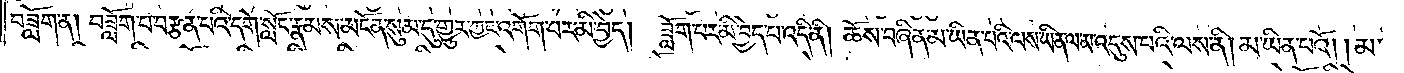བཟློག་ན། བཟློག་པ་བརྩན་པའི་དགེ་སློང་རྣམས་མངོན་སུམ་དུ་གྱུར་ཀྱང་འགོག་པར་མི་བྱེད། ཟློག་པར་མི་བྱེད་པ་འདི་ནི། ཆོས་བཞིན་མ་ཡིན་པའི་ལས་ཡིན་ལ་མ་འདུས་པའི་ལས་ནི། མ་ཡིན་པའོ། །མ་
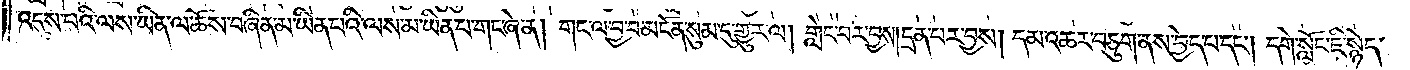འདུས་པའི་ལས་ཡིན་ལ་ཆོས་བཞིན་མ་ཡིན་པའི་ལས་མ་ཡིན་པ་གང་ཞེ་ན། གང་ལ་བྱ་བ་མངོན་སུམ་དུ་གྱུར་ལ། གླེང་བར་བྱས། དྲན་པར་བྱས། དམ་འཆར་བཅུག་ནས་བྱེད་པ་དང༌། དགེ་སློང་ཇི་སྙེད་
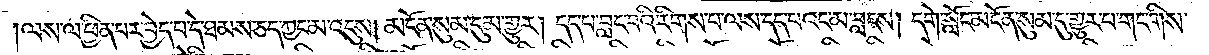ལས་ལ་ཕྱིན་པར་བྱེད་པ་དེ་ཐམས་ཅད་ཀྱང་མ་འདུས། མངོན་སུམ་དུ་མ་གྱུར། དད་པ་བླང་བའི་རིགས་པ་ལས་དད་པའང་མ་བླངས། དགེ་སློང་མངོན་སུམ་དུ་གྱུར་པ་གང་གིས་
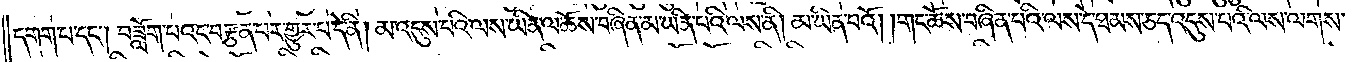དགག་པ་དང༌། བཟློག་པའང་བརྩན་པར་གྱུར་པ་དེ་ནི། མ་འདུས་པའི་ལས་ཡིན་ལ་ཆོས་བཞིན་མ་ཡིན་པའི་ལས་ནི། མ་ཡིན་པའོ། །གང་ཆོས་བཞིན་པའི་ལས་དེ་ཐམས་ཅད་འདུས་པའི་ལས་ལགས་
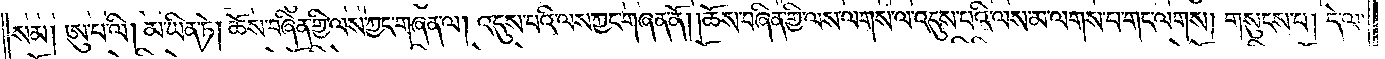སམ། ཨུ་པ་ལི། མ་ཡིན་ཏེ། ཆོས་བཞིན་གྱི་ལས་ཀྱང་གཞན་ལ། འདུས་པའི་ལས་ཀྱང་གཞན་ནོ། །ཆོས་བཞིན་གྱི་ལས་ལགས་ལ་འདུས་པའི་ལས་མ་ལགས་པ་གང་ལགས། གསུངས་པ། དེ་ལ་
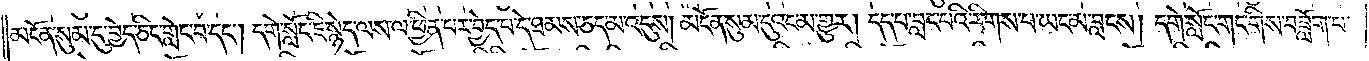མངོན་སུམ་དུ་བྱེད་ཅིང་གླེང་བ་དང༌། དགེ་སློང་ཇི་སྙེད་ལས་ལ་ཕྱིན་པར་བྱེད་པ་དེ་ཐམས་ཅད་མ་འདུས། མངོན་སུམ་དུའང་མ་གྱུར། དད་པ་བླང་པའི་རིགས་པ་ཡང་མ་བླངས། དགེ་སློང་གང་གིས་བཟློག་པ་
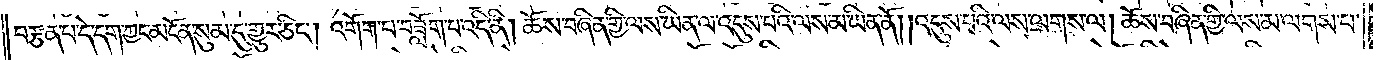བརྩན་པ་དེ་དག་ཀྱང་མངོན་སུམ་དུ་གྱུར་ཅིག། འགོག་པ་བཟློག་པ་འདི་ནི། ཆོས་བཞིན་གྱི་ལས་ཡིན་ལ་འདུས་པའི་ལས་མ་ཡིན་ནོ། །འདུས་པའི་ལས་ལགས་ལ། ཆོས་བཞིན་གྱི་ལས་མ་ལགས་པ་
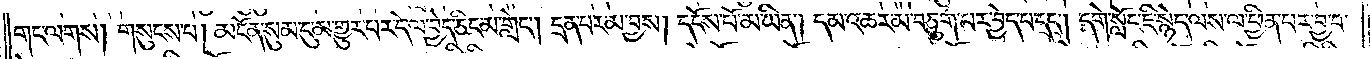གང་ལགས། གསུངས་པ། མངོན་སུམ་དུ་མ་གྱུར་པར་དེ་ལ་བྱེད་ཅིང་མ་གླེང༌། དྲན་པར་མ་བྱས། དངོས་པོ་མ་ཡིན། དམ་འཆར་མ་བཅུག་པར་བྱེད་པ་དང༌། དགེ་སློང་ཇི་སྙེད་ལས་ལ་ཕྱིན་པར་བྱ་བ་
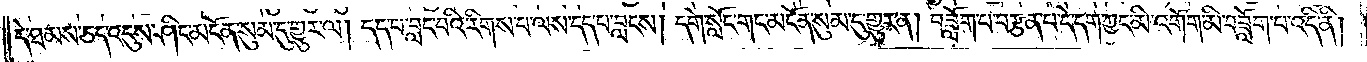དེ་ཐམས་ཅད་འདུས་ཤིང་མངོན་སུམ་དུ་གྱུར་ལ། དད་པ་བླང་པའི་རིགས་པ་ལས་དད་པ་བླངས། དགེ་སློང་གང་མངོན་སུམ་དུ་གྱུར་ན། བཟློག་པ་བརྩན་པ་དེ་དག་ཀྱང་མི་འགོག་མི་བཟློག་པ་འདི་ནི།
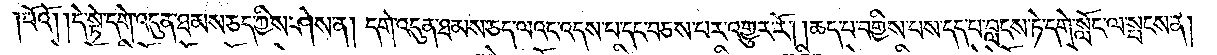པོའོ། །དེ་སྟེ་དགེ་འདུན་ཐམས་ཅད་ཀྱིས་ཤེས་ན། དགེ་འདུན་ཐམས་ཅད་ལའང་འདས་པ་དང་བཅས་པར་འགྱུར་རོ། །ཆད་པ་བགྱིས་པས་དད་པ་བླངས་ཏེ་དགེ་སློང་ལ་སྤངས་ན།
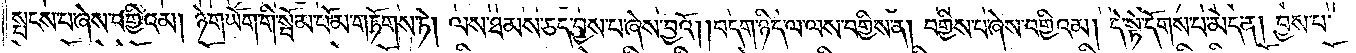སྤངས་པ་ཞེས་བགྱིའམ། ཉེ་གཡོག་གི་སྦོམ་པོ་མ་གཏོགས་ཏེ། ལས་ཐམས་ཅད་བྱས་པ་ཞེས་བྱའོ། །བདག་ཉིད་ལ་ལས་བགྱིས་ན། བགྱིས་པ་ཞེས་བགྱིའམ། དེ་སྟེ་དོགས་པ་མེད་ན། བྱས་པ་
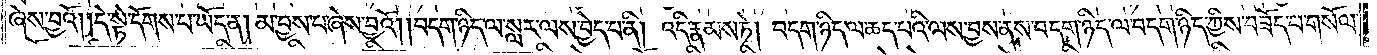ཞེས་བྱའོ། །དེ་སྟེ་དོགས་པ་ཡོད་ན། མ་བྱས་པ་ཞེས་བྱའོ། །བདག་ཉིད་ལ་སླར་ལས་བྱེད་པ་ནི། འདི་རྣམས་ཏེ། བདག་ཉིད་ལ་ཆད་པའི་ལས་བྱས་ནས་བདག་ཉིད་ལ་བདག་ཉིད་ཀྱིས་བཟོད་པ་གསོལ་
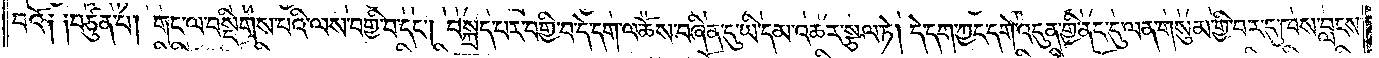བའོ༑ ༑བཙུན་པ། གང་ལ་བསྡིགས་པའི་ལས་བགྱི་བ་དང༌། བསྐྲད་པར་བགྱི་བ་དེ་དག་ལ་ཆོས་བཞིན་དུ་ཡི་དམ་འཆར་སྩལ་ཏེ། དེ་དག་ཀྱང་དགེ་འདུན་གྱི་ནང་དུ་ལན་གསུམ་གྱི་བར་དུ་ཁས་བླངས་
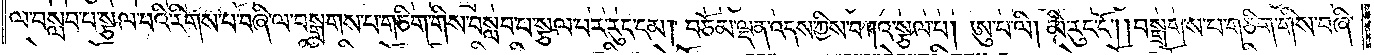ལ་བསླབ་པ་སྩལ་པའི་རིགས་པ་བཞི་ལ་བསྒྲགས་པ་གཅིག་གིས་བསླབ་པ་སྩལ་བར་རུང་ངམ། བཅོམ་ལྡན་འདས་ཀྱིས་བཀའ་སྩལ་པ། ཨུ་པ་ལི། མི་རུང་ངོ༌། །བསྒྲགས་པ་གཅིག་གིས་བཞི་
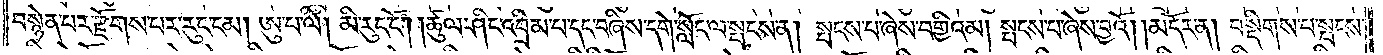བསྙེན་པར་རྫོགས་པར་རུང་ངམ། ཨུ་པ་ལི། མི་རུང་ངོ༌། །ཚུལ་ཤིང་འབྲིམ་པ་དང་བཞིས་དགེ་སློང་ལ་སྤངས་ན། སྤངས་པ་ཞེས་བགྱིའམ། སྤངས་པ་ཞེས་བྱའོ། །མདོར་ན། བསྡིགས་པ་སྤངས་
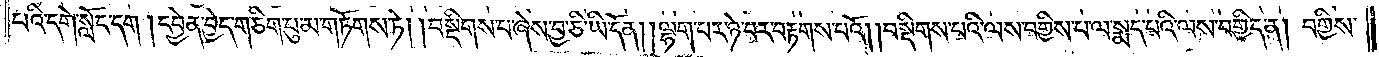པའི་དགེ་སློང་དག །དབྱེན་བྱེད་གཅིག་པུ་མ་གཏོགས་ཏེ། །བསྡིགས་པ་ཞེས་བྱ་ཅི་ཡི་དོན། །ལྷག་པར་ཉེ་བར་བརྟགས་པའོ། །བསྡིགས་པའི་ལས་བགྱིས་པ་ལ་སྨད་པའི་ལས་བགྱིད་ན། བགྱིས་
